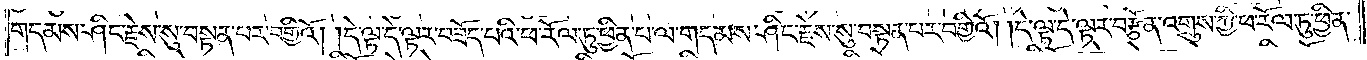གདམས་ཤིང་རྗེས་སུ་བསྟན་པར་བགྱིའོ། །དེ་ལྟ་དེ་ལྟར་བཟོད་པའི་ཕ་རོལ་ཏུ་ཕྱིན་པ་ལ་གདམས་ཤིང་རྗེས་སུ་བསྟན་པར་བགྱིའོ། །དེ་ལྟ་དེ་ལྟར་བརྩོན་འགྲུས་ཀྱི་ཕ་རོལ་ཏུ་ཕྱིན་
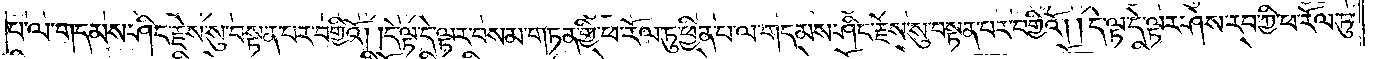པ་ལ་གདམས་ཤིང་རྗེས་སུ་བསྟན་པར་བགྱིའོ། །དེ་ལྟ་དེ་ལྟར་བསམ་གཏན་གྱི་ཕ་རོལ་ཏུ་ཕྱིན་པ་ལ་གདམས་ཤིང་རྗེས་སུ་བསྟན་པར་བགྱིའོ། །དེ་ལྟ་དེ་ལྟར་ཤེས་རབ་ཀྱི་ཕ་རོལ་ཏུ་
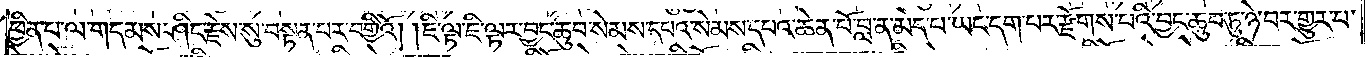ཕྱིན་པ་ལ་གདམས་ཤིང་རྗེས་སུ་བསྟན་པར་བགྱིའོ། །ཇི་ལྟ་ཇི་ལྟར་བྱང་ཆུབ་སེམས་དཔའ་སེམས་དཔའ་ཆེན་པོ་བླ་ན་མེད་པ་ཡང་དག་པར་རྫོགས་པའི་བྱང་ཆུབ་ཏུ་ཉེ་བར་གྱུར་པ་
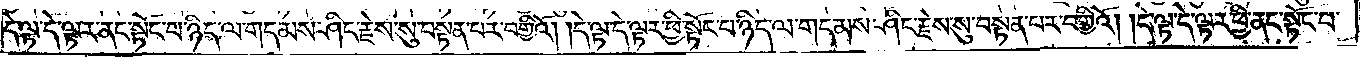དེ་ལྟ་དེ་ལྟར་ནང་སྟོང་པ་ཉིད་ལ་གདམས་ཤིང་རྗེས་སུ་བསྟན་པར་བགྱིའོ། །དེ་ལྟ་དེ་ལྟར་ཕྱི་སྟོང་པ་ཉིད་ལ་གདམས་ཤིང་རྗེས་སུ་བསྟན་པར་བགྱིའོ། །དེ་ལྟ་དེ་ལྟར་ཕྱི་ནང་སྟོང་པ་
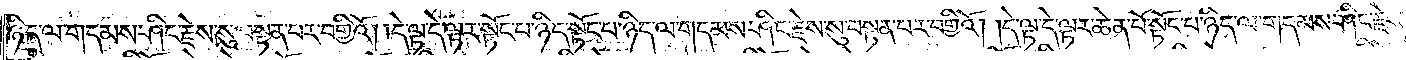ཉིད་ལ་གདམས་ཤིང་རྗེས་སུ་བསྟན་པར་བགྱིའོ། །དེ་ལྟ་དེ་ལྟར་སྟོང་པ་ཉིད་སྟོང་པ་ཉིད་ལ་གདམས་ཤིང་རྗེས་སུ་བསྟན་པར་བགྱིའོ། །དེ་ལྟ་དེ་ལྟར་ཆེན་པོ་སྟོང་པ་ཉིད་ལ་གདམས་ཤིང་རྗེས་
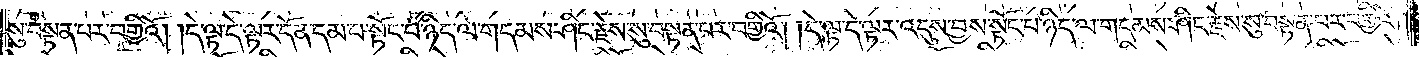སུ་བསྟན་པར་བགྱིའོ། །དེ་ལྟ་དེ་ལྟར་དོན་དམ་པ་སྟོང་པ་ཉིད་ལ་གདམས་ཤིང་རྗེས་སུ་བསྟན་པར་བགྱིའོ། །དེ་ལྟ་དེ་ལྟར་འདུས་བྱས་སྟོང་པ་ཉིད་ལ་གདམས་ཤིང་རྗེས་སུ་བསྟན་པར་བགྱིའོ། །
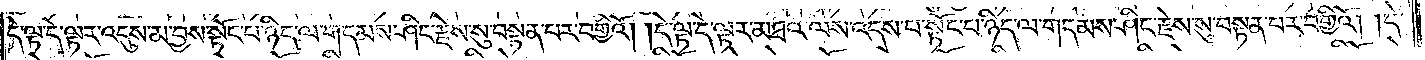དེ་ལྟ་དེ་ལྟར་འདུས་མ་བྱས་སྟོང་པ་ཉིད་ལ་གདམས་ཤིང་རྗེས་སུ་བསྟན་པར་བགྱིའོ། །དེ་ལྟ་དེ་ལྟར་མཐའ་ལས་འདས་པ་སྟོང་པ་ཉིད་ལ་གདམས་ཤིང་རྗེས་སུ་བསྟན་པར་བགྱིའོ། །དེ་
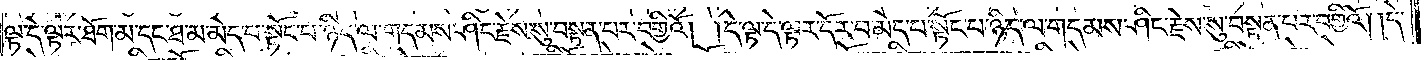ལྟ་དེ་ལྟར་ཐོག་མ་དང་ཐ་མ་མེད་པ་སྟོང་པ་ཉིད་ལ་གདམས་ཤིང་རྗེས་སུ་བསྟན་པར་བགྱིའོ། །དེ་ལྟ་དེ་ལྟར་དོར་བ་མེད་པ་སྟོང་པ་ཉིད་ལ་གདམས་ཤིང་རྗེས་སུ་བསྟན་པར་བགྱིའོ། །དེ་
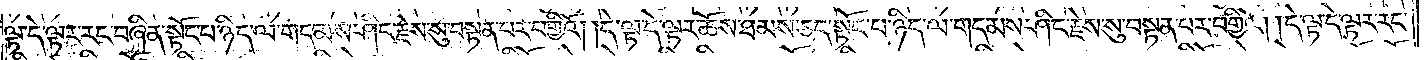ལྟ་དེ་ལྟར་རང་བཞིན་སྟོང་པ་ཉིད་ལ་གདམས་ཤིང་རྗེས་སུ་བསྟན་པར་བགྱིའོ། །དེ་ལྟ་དེ་ལྟར་ཆོས་ཐམས་ཅད་སྟོང་པ་ཉིད་ལ་གདམས་ཤིང་རྗེས་སུ་བསྟན་པར་བགྱིའོ། །དེ་ལྟ་དེ་ལྟར་རང་
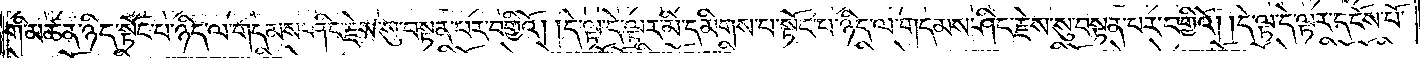གི་མཚན་ཉིད་སྟོང་པ་ཉིད་ལ་གདམས་ཤིང་རྗེས་སུ་བསྟན་པར་བགྱིའོ། །དེ་ལྟ་དེ་ལྟར་མི་དམིགས་པ་སྟོང་པ་ཉིད་ལ་གདམས་ཤིང་རྗེས་སུ་བསྟན་པར་བགྱིའོ། །དེ་ལྟ་དེ་ལྟར་དངོས་པོ་
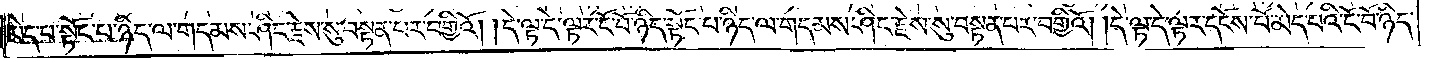མེད་པ་སྟོང་པ་ཉིད་ལ་གདམས་ཤིང་རྗེས་སུ་བསྟན་པར་བགྱིའོ། །དེ་ལྟ་དེ་ལྟར་ངོ་བོ་ཉིད་སྟོང་པ་ཉིད་ལ་གདམས་ཤིང་རྗེས་སུ་བསྟན་པར་བགྱིའོ། །དེ་ལྟ་དེ་ལྟར་དངོས་པོ་མེད་པའི་ངོ་བོ་ཉིད་
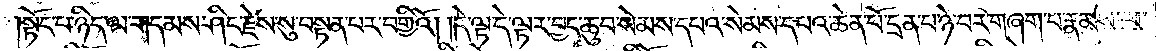སྟོང་པ་ཉིད་ལ་གདམས་ཤིང་རྗེས་སུ་བསྟན་པར་བགྱིའོ། །དེ་ལྟ་དེ་ལྟར་བྱང་ཆུབ་སེམས་དཔའ་སེམས་དཔའ་ཆེན་པོ་དྲན་པ་ཉེ་བར་གཞག་པ་རྣམས་ལ་
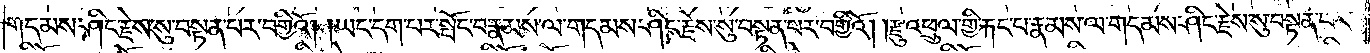གདམས་ཤིང་རྗེས་སུ་བསྟན་པར་བགྱིའོ། །ཡང་དག་པར་སྤོང་བ་རྣམས་ལ་གདམས་ཤིང་རྗེས་སུ་བསྟན་པར་བགྱིའོ། །རྫུ་འཕྲུལ་གྱི་རྐང་པ་རྣམས་ལ་གདམས་ཤིང་རྗེས་སུ་བསྟན་པར་
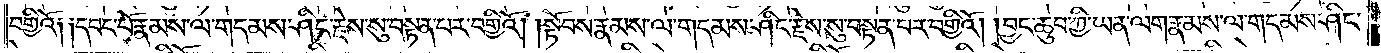བགྱིའོ༑ ༑དབང་པོ་རྣམས་ལ་གདམས་ཤིང་རྗེས་སུ་བསྟན་པར་བགྱིའོ། །སྟོབས་རྣམས་ལ་གདམས་ཤིང་རྗེས་སུ་བསྟན་པར་བགྱིའོ། །བྱང་ཆུབ་ཀྱི་ཡན་ལག་རྣམས་ལ་གདམས་ཤིང་
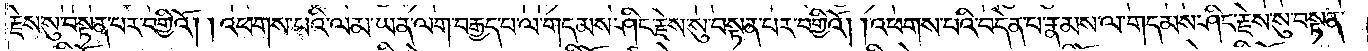རྗེས་སུ་བསྟན་པར་བགྱིའོ། །འཕགས་པའི་ལམ་ཡན་ལག་བརྒྱད་པ་ལ་གདམས་ཤིང་རྗེས་སུ་བསྟན་བར་བགྱིའོ། །འཕགས་པའི་བདེན་པ་རྣམས་ལ་གདམས་ཤིང་རྗེས་སུ་བསྟན་
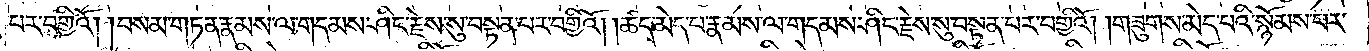པར་བགྱིའོ། །བསམ་གཏན་རྣམས་ལ་གདམས་ཤིང་རྗེས་སུ་བསྟན་པར་བགྱིའོ། །ཚད་མེད་པ་རྣམས་ལ་གདམས་ཤིང་རྗེས་སུ་བསྟན་པར་བགྱིའོ། །གཟུགས་མེད་པའི་སྙོམས་པར་
